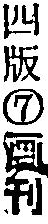四版⑦画刊
